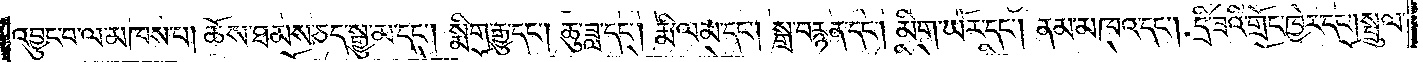འབྱུང་བ་ལ་མཁས་པ། ཆོས་ཐམས་ཅད་སྒྱུ་མ་དང༌། སྨིག་རྒྱུ་དང༌། ཆུ་ཟླ་དང༌། རྨི་ལམ་དང༌། སྒྲ་བརྙན་དང༌། མིག་ཡོར་དང༌། ནམ་མཁའ་དང༌། དྲི་ཟའི་གྲོང་ཁྱེར་དང༌། སྤྲུལ་
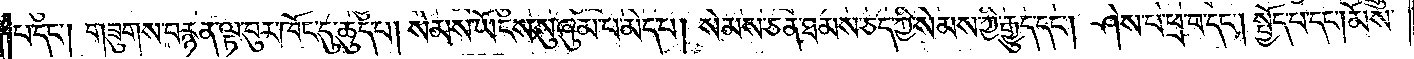པ་དང༌། གཟུགས་བརྙན་ལྟ་བུར་ཁོང་དུ་ཆུད་པ། སེམས་ཡོངས་སུ་ཞུམ་པ་མེད་པ། སེམས་ཅན་ཐམས་ཅད་ཀྱི་སེམས་ཀྱི་རྒྱུད་དང༌། ཤེས་པ་ཕྲ་བ་དང༌། སྤྱོད་པ་དང༌། མོས་
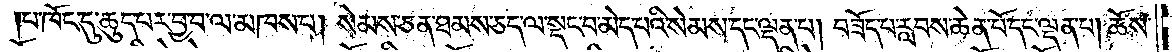པ་ཁོང་དུ་ཆུད་པར་བྱ་བ་ལ་མཁས་པ། སེམས་ཅན་ཐམས་ཅད་ལ་སྡང་བ་མེད་པའི་སེམས་དང་ལྡན་པ། བཟོད་པ་རླབས་ཆེན་པོ་དང་ལྡན་པ། ཆོས་
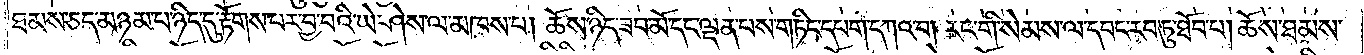ཐམས་ཅད་མཉམ་པ་ཉིད་དུ་རྟོགས་པར་བྱ་བའི་ཡེ་ཤེས་ལ་མཁས་པ། ཆོས་ཉིད་ཟབ་མོ་དང་ལྡན་པས་གཏིང་དཔག་དཀའ་བ། རང་གི་སེམས་ལ་དབང་རབ་ཏུ་ཐོབ་པ། ཆོས་ཐམས་
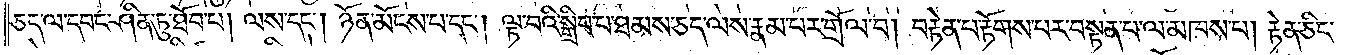ཅད་ལ་དབང་ཤིན་ཏུ་ཐོབ་པ། ལས་དང༌། ཉོན་མོངས་པ་དང༌། ལྟ་བའི་སྒྲིབ་པ་ཐམས་ཅད་ལས་རྣམ་པར་གྲོལ་བ། བརྟེན་པ་རྟོགས་པར་བསྟན་པ་ལ་མཁས་པ། རྟེན་ཅིང་
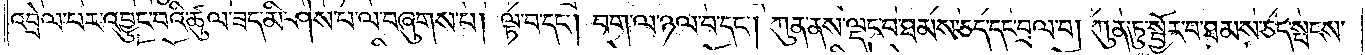འབྲེལ་པར་འབྱུང་བའི་ཚུལ་ཟད་མི་ཤེས་པ་ལ་བཞུགས་པ། ལྟ་བ་དང༌། བག་ལ་ཉལ་བ་དང༌། ཀུན་ནས་ལྡང་བ་ཐམས་ཅད་དང་བྲལ་བ། ཀུན་ཏུ་སྦྱོར་བ་ཐམས་ཅད་སྤངས་
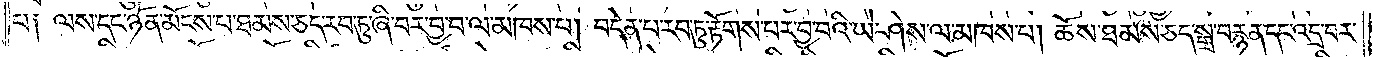པ༑ ལས་དང་ཉོན་མོངས་པ་ཐམས་ཅད་རབ་ཏུ་ཞི་བར་བྱ་བ་ལ་མཁས་པ། བདེན་པ་རབ་ཏུ་རྟོགས་པར་བྱ་བའི་ཡེ་ཤེས་ལ་མཁས་པ། ཆོས་ཐམས་ཅད་སྒྲ་བརྙན་དང་འདྲ་བར་
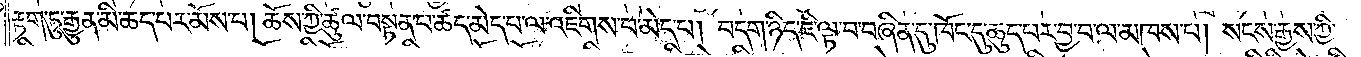རྟག་ཏུ་རྒྱུན་མི་ཆད་པར་མོས་པ། ཆོས་ཀྱི་ཚུལ་བསྟན་པ་ཚད་མེད་པ་ལ་འཇིགས་པ་མེད་པ། བདག་ཉིད་ཇི་ལྟ་བ་བཞིན་དུ་ཁོང་དུ་ཆུད་པར་བྱ་བ་ལ་མཁས་པ། སངས་རྒྱས་ཀྱི་
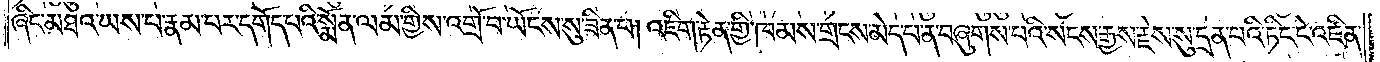ཞིང་མཐའ་ཡས་པ་རྣམ་པར་དགོད་པའི་སྨོན་ལམ་གྱིས་འགྲོ་བ་ཡོངས་སུ་ཟིན་པ། འཇིག་རྟེན་གྱི་ཁམས་གྲངས་མེད་པ་ན་བཞུགས་པའི་སངས་རྒྱས་རྗེས་སུ་དྲན་པའི་ཏིང་ངེ་འཛིན་
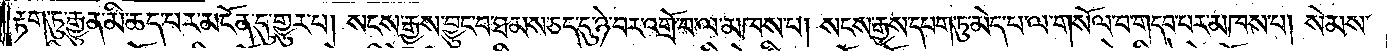རྟག་ཏུ་རྒྱུན་མི་ཆད་པར་མངོན་དུ་གྱུར་པ། སངས་རྒྱས་བྱུང་བ་ཐམས་ཅད་དུ་ཉེ་བར་འགྲོ་བ་ལ་མཁས་པ། སངས་རྒྱས་དཔག་ཏུ་མེད་པ་ལ་གསོལ་བ་གདབ་པར་མཁས་པ། སེམས་
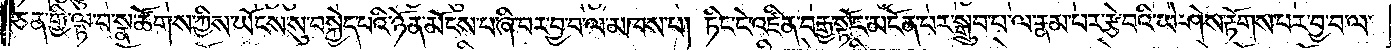ཅན་གྱི་ལྟ་བ་སྣ་ཚོགས་ཀྱིས་ཡོངས་སུ་བསྐྱེད་པའི་ཉོན་མོངས་པ་ཞི་བར་བྱ་བ་ལ་མཁས་པ། ཏིང་ངེ་འཛིན་བརྒྱ་སྟོང་མངོན་པར་སྒྲུབ་པ་ལ་རྣམ་པར་རྩེ་བའི་ཡེ་ཤེས་རྟོགས་པར་བྱ་བ་ལ་
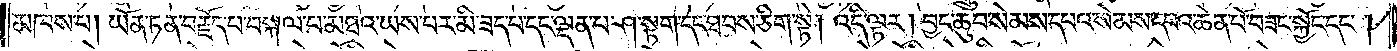མཁས་པ། ཡོན་ཏན་བརྗོད་པ་བསྐལ་པ་མཐའ་ཡས་པར་མི་ཟད་པ་དང་ལྡན་པ་ཤ་སྟག་དང་ཐབས་ཅིག་སྟེ། འདི་ལྟར། བྱང་ཆུབ་སེམས་དཔའ་སེམས་དཔའ་ཆེན་པོ་བཟང་སྐྱོང་དང༌།
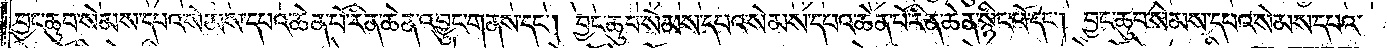བྱང་ཆུབ་སེམས་དཔའ་སེམས་དཔའ་ཆེན་པོ་རིན་ཆེན་འབྱུང་གནས་དང༌། བྱང་ཆུབ་སེམས་དཔའ་སེམས་དཔའ་ཆེན་པོ་རིན་ཆེན་སྙིང་པོ་དང༌། བྱང་ཆུབ་སེམས་དཔའ་སེམས་དཔའ་
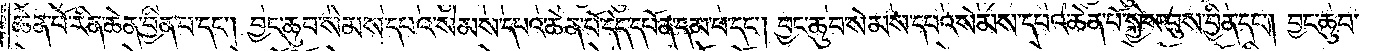ཆེན་པོ་རིན་ཆེན་བྱིན་པ་དང༌། བྱང་ཆུབ་སེམས་དཔའ་སེམས་དཔའ་ཆེན་པོ་དེད་དཔོན་དམ་པ་དང༌། བྱང་ཆུབ་སེམས་དཔའ་སེམས་དཔའ་ཆེན་པོ་སྐྱེས་བུས་བྱིན་དང༌། བྱང་ཆུབ་
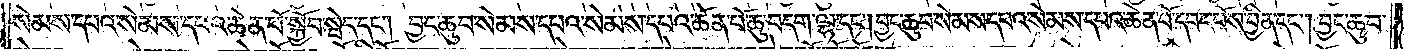སེམས་དཔའ་སེམས་དཔའ་ཆེན་པོ་སྐྱོབ་སྦེད་དང༌། བྱང་ཆུབ་སེམས་དཔའ་སེམས་དཔའ་ཆེན་པོ་ཆུ་བདག་ལྷ་དང༌། བྱང་ཆུབ་སེམས་དཔའ་སེམས་དཔའ་ཆེན་པོ་དབང་པོས་བྱིན་དང༌། བྱང་ཆུབ་
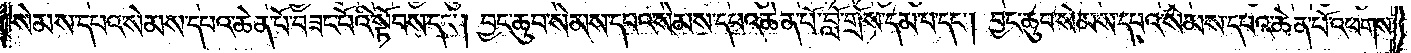སེམས་དཔའ་སེམས་དཔའ་ཆེན་པོ་བཟང་པོའི་སྟོབས་དང༌། བྱང་ཆུབ་སེམས་དཔའ་སེམས་དཔའ་ཆེན་པོ་བློ་གྲོས་དམ་པ་དང༌། བྱང་ཆུབ་སེམས་དཔའ་སེམས་དཔའ་ཆེན་པོ་འཕགས་
